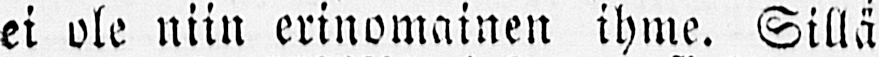ei ole niin erinomainen ihme. Sillä
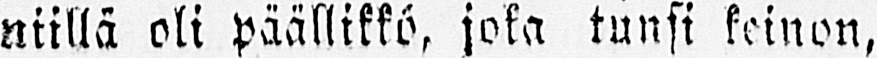niillä oli päällikkö, joka tunsi keinon,
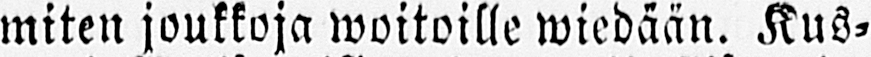miten joukkoja woitoille wiedään. Kus-
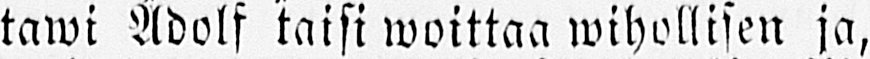tawi Adolf taisi woittaa wihollisen ja,
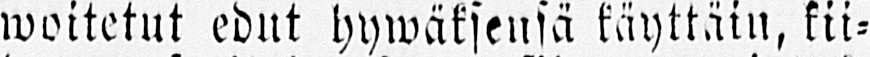wioitetut edut hywäksensä käyttäin, kii-
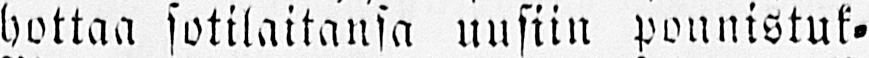hottaa sotilaitansa uusiin ponnistuk-
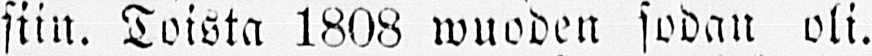siin. Toista 1808 wuoden sodan oli.
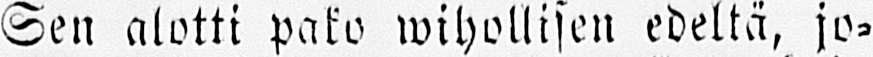Sen alotti pako wihollisen edeltä, jo-
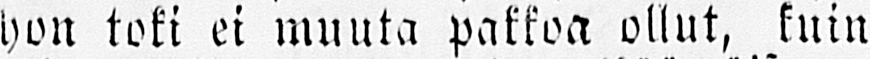hon toki ei muuta pakkoa ollut, kuin
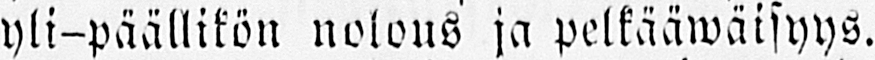yli-päällikön nolous ja pelkääwäisyys.
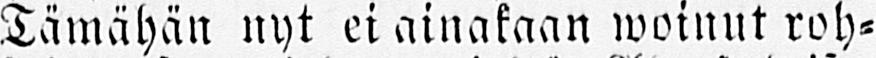Tämähän nyt ei ainakaan woinut roh-
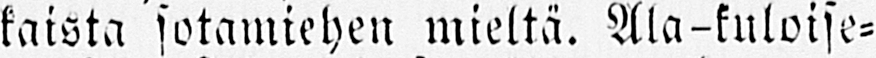kaista sotamiehen mieltä. Ala-kuloise-
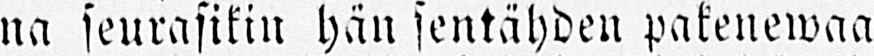na seurasikin hän sentähden pakenewaa
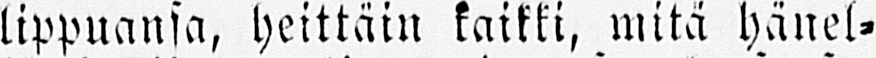lippuansa, heittäin kaikki, mitä hänel-
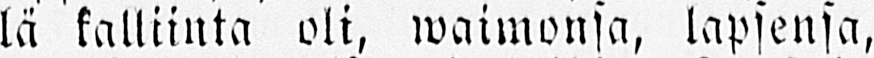lä kalliinta oli, waiwonsa, lapsensa,
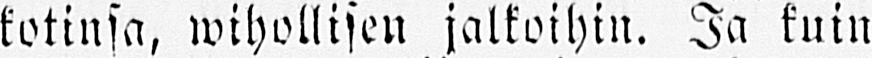kotinsa, wihollisen jalkoihin. Ja kuin
